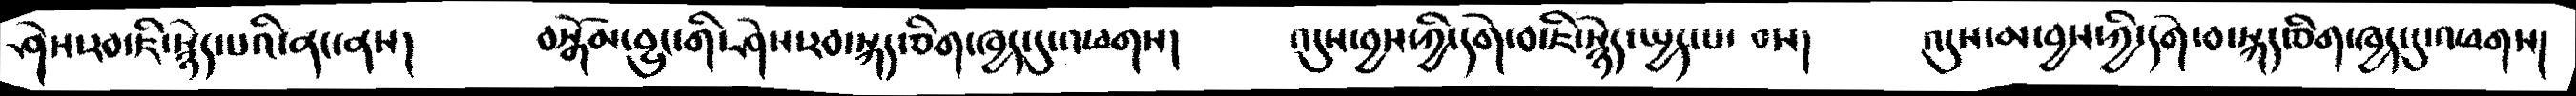ཤེས་རབ་ཇི་སྙེད་པའི་ནང་ནས།  བསྒོམ་བྱུང་གི་ཤེས་རབ་སྐད་ཅིག་ཁྱད་དུ་འཕགས།  འདུས་བྱས་ཀྱི་དགེ་བ་ཇི་སྙེད་སྤྱད་པ་ བས།  འདུས་མ་བྱས་ཀྱི་དགེ་བ་སྐད་ཅིག་ཁྱད་དུ་འཕགས།
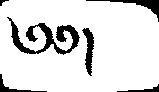༄༅།
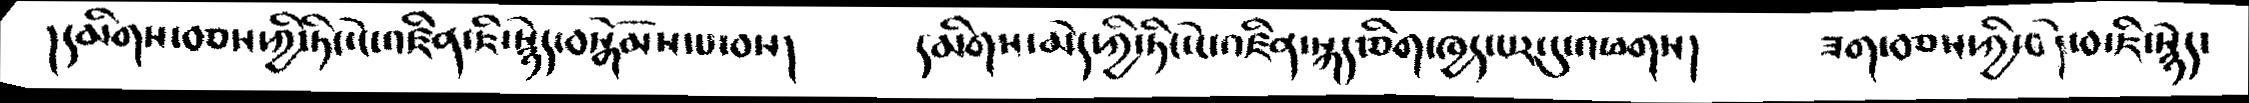།དམིགས་བཅས་ཀྱི་ཏིང་ངེ་འཛིན་ཇི་སྙེད་བསྒོམས་པ་བས།  དམིགས་མེད་ཀྱི་ཏིང་ངེ་འཛིན་སྐད་ཅིག་ཁྱད་པར་དུ་འཕགས།  ཟག་བཅས་ཀྱི་བདེ་བ་ཇི་སྙེད་
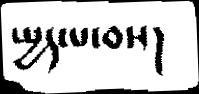སྤྱད་པ་བས།
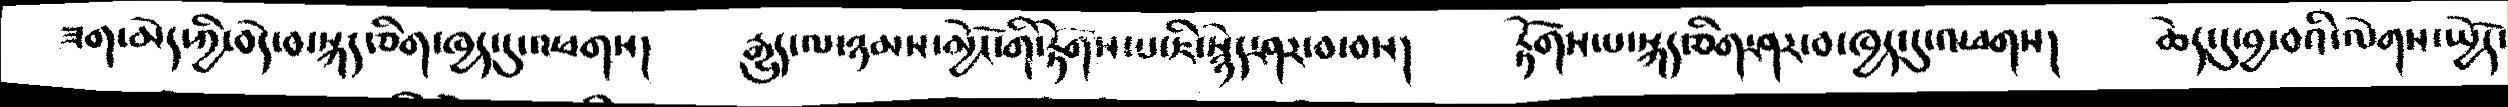ཟག་མེད་ཀྱི་བདེ་བ་སྐད་ཅིག་ཁྱད་དུ་འཕགས།  རྒྱུད་ལ་ཉམས་མྱོང་གི་རྟོགས་པ་ཇི་སྙེད་ཤར་བ་བས།  རྟོགས་པ་སྐད་ཅིག་ཤར་བ་ཁྱད་དུ་འཕགས།   ཆེད་དུ་བྱ་བའི་ལེགས་སྤྱོད་
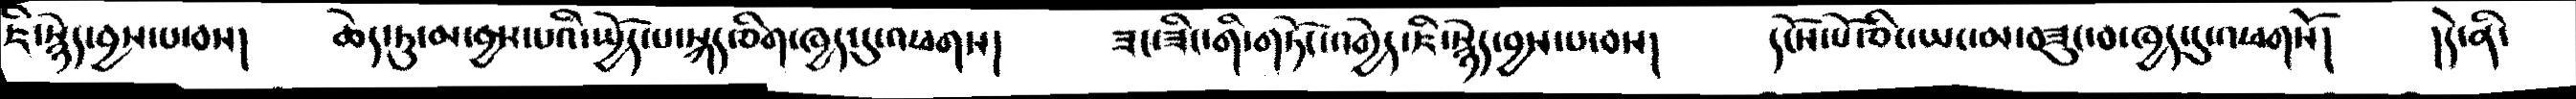ཇི་སྙེད་བྱས་པ་བས།  ཆེད་ཏུ་མ་བྱས་པའི་སྤྱོད་པ་སྐད་ཅིག་ཁྱད་དུ་འཕགས།  ཟང་ཟིང་གི་གཏོང་འགྱེད་ཇི་སྙེད་བྱས་པ་བས།  དངོས་པོ་ཅིང་ཡང་མ་བཟུང་བ་ཁྱད་དུ་འཕགསོ། །དེ་ནི་
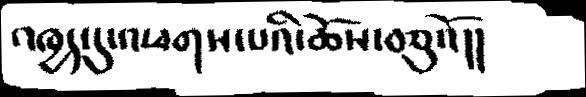འཁྱད་དུ་འཕགས་པའི་ཆོས་བཅུའོ།།
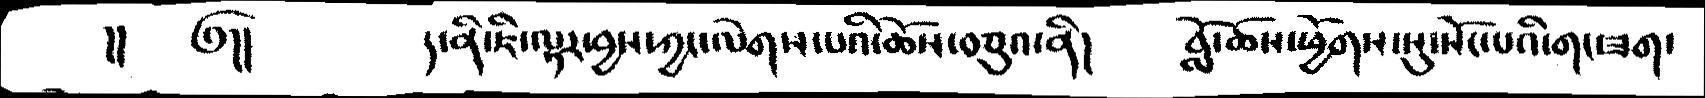།།   ༅།།   ད་ནི་ཇི་ལྟར་བྱས་ཀྱང་ལེགས་པའི་ཆོས་བཅུའ་ནི།  བློ་ཆོས་ཕྱོགས་སུ་སོང་པའི་གང་ཟག་
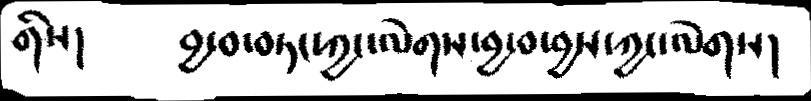གིས།  བྱ་བ་བཏང་ཀྱང་ལེགས་བྱ་བ་བྱས་ཀྱང་ལེགས།
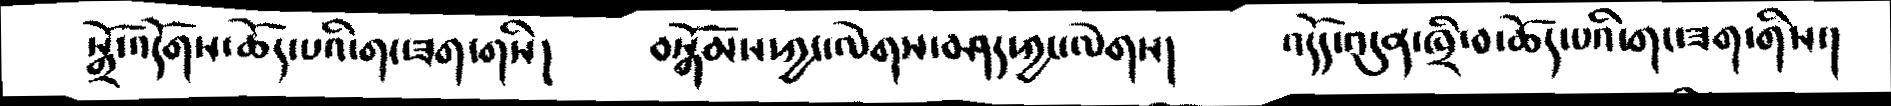སྒྲོ་འདོགས་ཆོད་པའི་གང་ཟག་གིས།  བསྒོམས་ཀྱང་ལེགས་བཤད་ཀྱང་ལེགས།  འདོད་འདུན་ཁྲི་བ་ཆོད་པའི་གང་ཟག་གིས་།
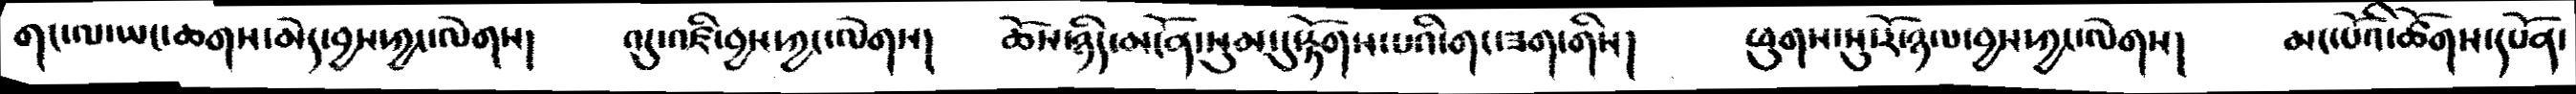གང་ལ་ཡང་ཆགས་མེད་བྱས་ཀྱང་ལེགས།  འདུ་འཛི་བྱས་ཀྱང་ལེགས།  ཆོས་ཉིད་མངོན་སུམ་དུ་རྟོགས་པའི་གང་ཟག་གིས།  ཕུགས་སུ་རོ་ཉལ་བྱས་ཀྱང་ལེགས།  མང་པོའི་ཚོགས་དཔོན་
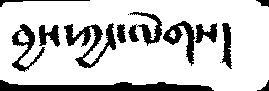བྱས་ཀྱང་ལེགས།
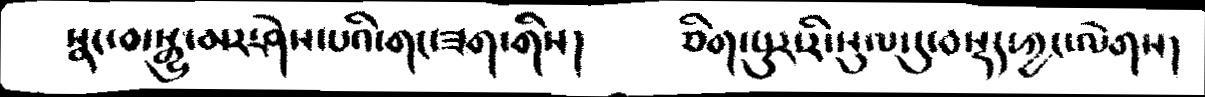སྣང་བ་སྒྱུ་མར་ཤེས་པའི་གང་ཟག་གིས།   ཅིག་པུར་རི་སུལ་དུ་བསྡད་ཀྱང་ལེགས།
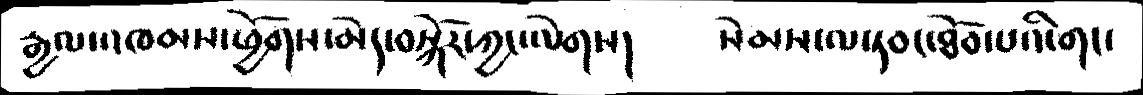རྒྱལ་ཁམས་ཕྱོགས་མེད་བསྐོར་ཀྱང་ལེགས།  སེམས་ལ་དབང་ཐོབ་པའི་གང་
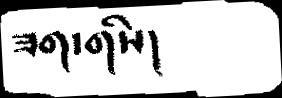ཟག་གིས།
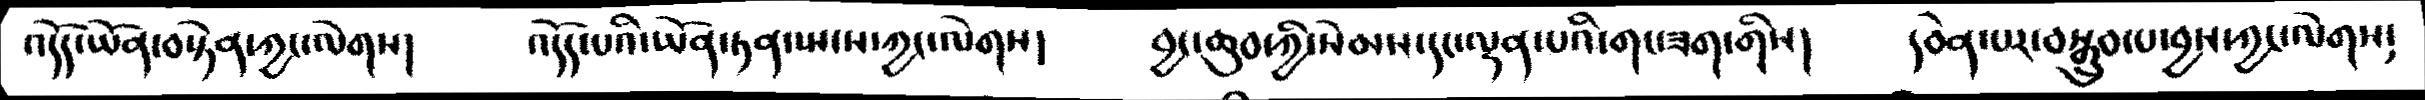འདོད་ཡོན་བསྟེན་ཀྱང་ལེགས།   འདོད་པའི་ཡོན་ཏན་སྤངས་ཀྱང་ལེགས།  བྱང་ཆུབ་ཀྱི་སེམས་དང་ལྡན་པའི་གང་ཟག་གིས།  དབེན་པར་བསྒྲུབ་པ་བྱས་ཀྱང་ལེགས།
